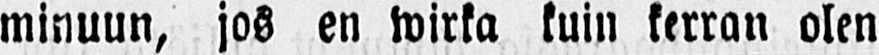minuun, jos en wirka kuin kerran olen
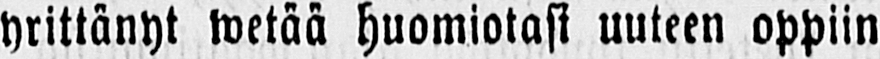yrittänyt wetää huomiotasi uuteen oppiin
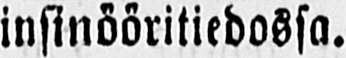insinööritiedossa.
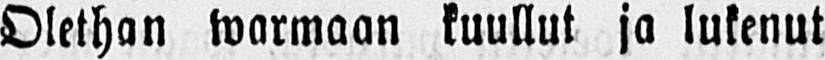Olethan warmaan kuullut ja lukenut
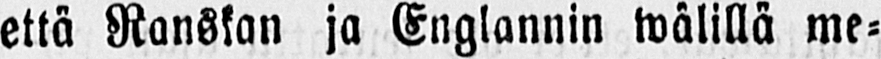että Ranskan ja Englannin wälillä me-
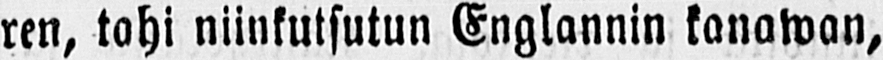ren, tahi niinkutsutun Englannin kanawan,
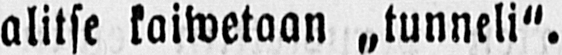alitse kaiwetaan „tunneli".
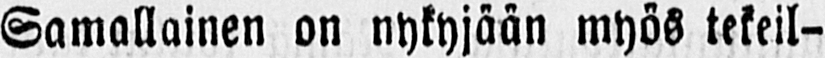Samallainen on nykyjään myös tekeil-
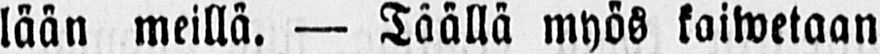lään meillä. — Täällä myös kaiwetaan
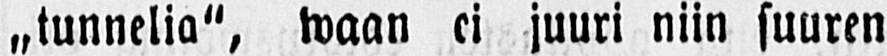˶tunnelia", waan ei juuri niin suuren
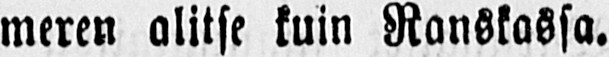meren alitse kuin Ranskassa.
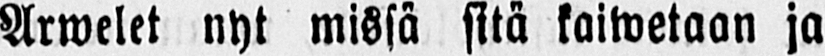Arwelet nyt missä sitä kaiwetaan ja
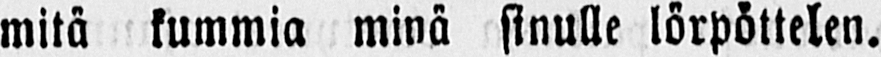mitä kummia minä sinulle lörpöttelen.
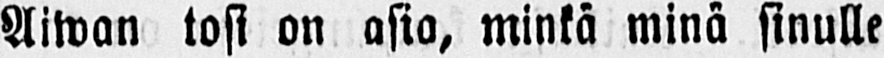Aiwan tosi on asia, minkä minä sinulle
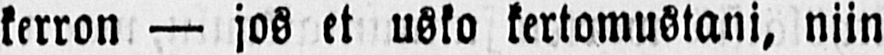kerron — jos et usko kertomustani, niin
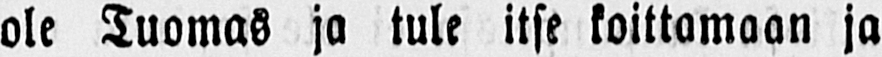ole Tuomas ja tule itse koittamaan ja
